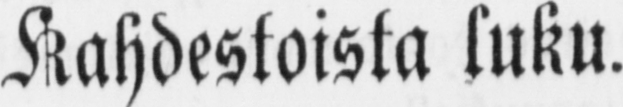Kahdestoista luku.
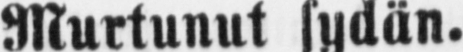Murtunut sydän.
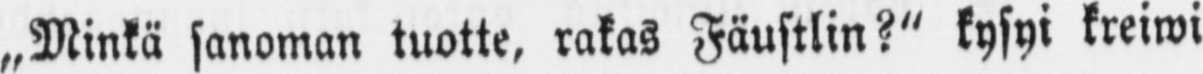„Minkä sanoman tuotte, rakas Fäustlin?" kysyi kreiwi
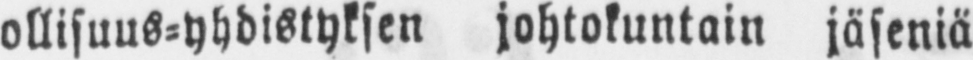ollisuus-yhdistyksen johtokuntain jäseniä
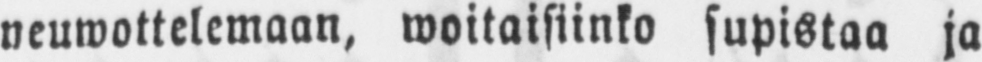neuwottelemaan, woitaisiinko supistaa ja
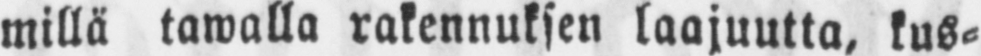millä tawalla rakennuksen laajuutta, kus-
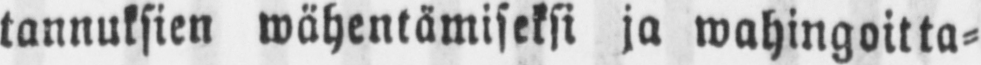tannuksien wähentämiseksi ja wahingoitta-
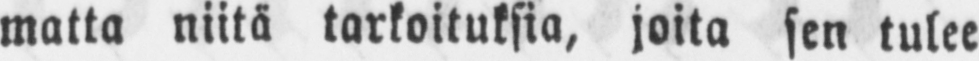matta niitä tarkoituksia, joita sen tulee
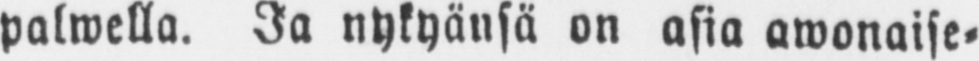palwella. Ja nykyänsä on asia awonaise-
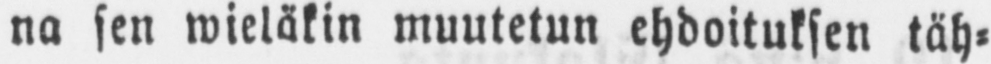na sen wieläkin muutetun ehdoituksen täh-
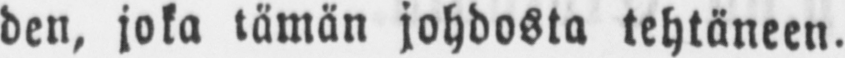den, joka tämän johdosta tehtäneen.
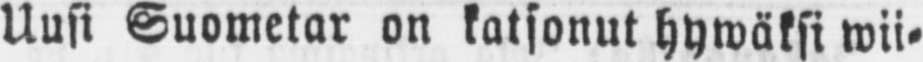Uusi Suometar on katsonut hywäksi wii-
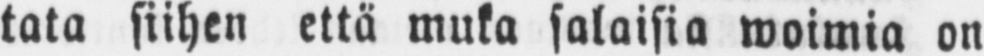tata siihen että muka salaisia woimia on
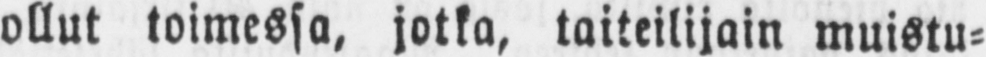ollut toimessa, jotka, taiteilijain muistu-
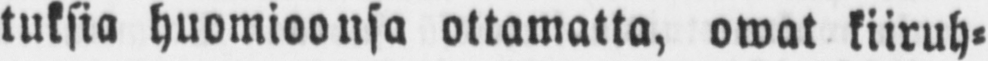tuksia huomioonsa ottamatta, owat kiiruh-
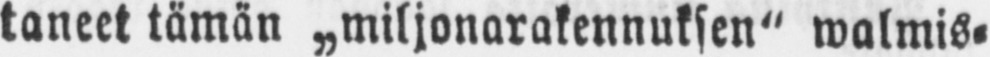taneet tämän „miljonarakennuksen" walmis-
